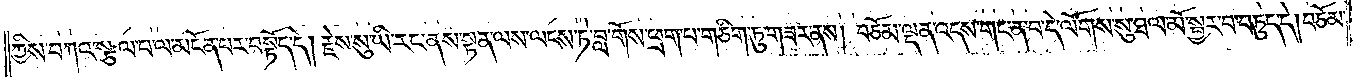ཀྱིས་བཀའ་སྩལ་པ་ལ་མངོན་པར་བསྟོད་དེ། རྗེས་སུ་ཡི་རང་ནས་སྟན་ལས་ལངས་ཏེ་བླ་གོས་ཕྲག་པ་གཅིག་ཏུ་གཟར་ནས། བཅོམ་ལྡན་འདས་གང་ན་བ་དེ་ལོགས་སུ་ཐལ་མོ་སྦྱར་བ་བཏུད་དེ། བཅོམ་
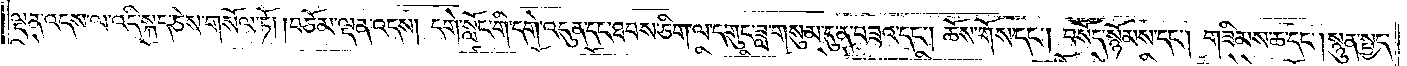ལྡན་འདས་ལ་འདི་སྐད་ཅེས་གསོལ་ཏོ། །བཅོམ་ལྡན་འདས། དགེ་སློང་གི་དགེ་འདུན་དང་ཐབས་ཅིག་ལ་དགུང་ཟླ་གསུམ་དུ་ན་བཟའ་དང༌། ཆོས་གོས་དང༌། བསོད་སྙོམས་དང༌། གཟིམས་ཆ་དང༌། སྙུན་སྤྱད་
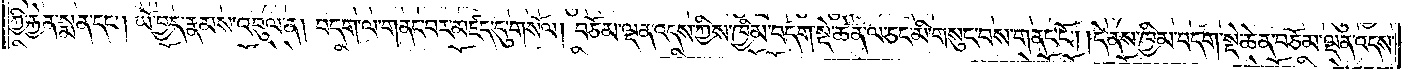ཀྱི་རྐྱེན་སྨན་དང༌། ཡོ་བྱད་རྣམས་འབུལ་ན། བདག་ལ་གནང་བར་མཛད་དུ་གསོལ། བཅོམ་ལྡན་འདས་ཀྱིས་ཁྱིམ་བདག་སྡེ་ཆེན་ལ་ཅང་མི་གསུང་བས་གནང་ངོ༌། །དེ་ནས་ཁྱིམ་བདག་སྡེ་ཆེན་བཅོམ་ལྡན་འདས་
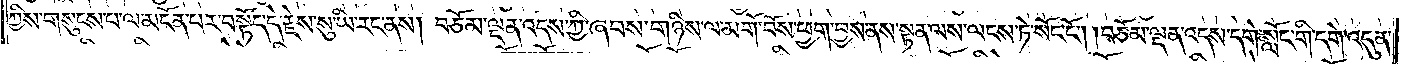ཀྱིས་གསུངས་པ་ལ་མངོན་པར་བསྟོད་དེ་རྗེས་སུ་ཡི་རང་ནས། བཅོམ་ལྡན་འདས་ཀྱི་ཞབས་གཉིས་ལ་མགོ་བོས་ཕྱག་བྱས་ནས་སྟན་ལས་ལངས་ཏེ་སོང་ངོ༌། །བཅོམ་ལྡན་འདས་དགེ་སློང་གི་དགེ་འདུན་
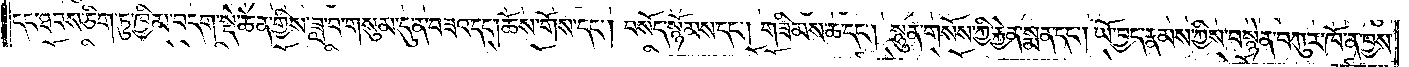དང་ཐབས་ཅིག་ཏུ་ཁྱིམ་བདག་སྡེ་ཆེན་གྱིས་ཟླ་བ་གསུམ་དུ་ན་བཟའ་དང༌། ཆོས་གོས་དང༌། བསོད་སྙོམས་དང༌། གཟིམས་ཆ་དང༌། སྙུན་གསོས་ཀྱི་རྐྱེན་སྨན་དང༌། ཡོ་བྱད་རྣམས་ཀྱིས་བསྙེན་བཀུར་ཁོ་ན་བྱས་
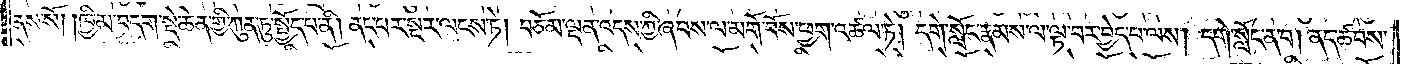ནས་སོ། །ཁྱིམ་བདག་སྡེ་ཆེན་གྱི་ཀུན་ཏུ་སྤྱོད་པ་ནི། ནང་པར་སྔར་ལངས་ཏེ། བཅོམ་ལྡན་འདས་ཀྱི་ཞབས་ལ་མགོ་བོས་ཕྱག་འཚལ་ཏེ། དགེ་སློང་རྣམས་ལ་ལྟ་བར་བྱེད་པ་ལས། དགེ་སློང་ན་བ། ནད་ཚབས་
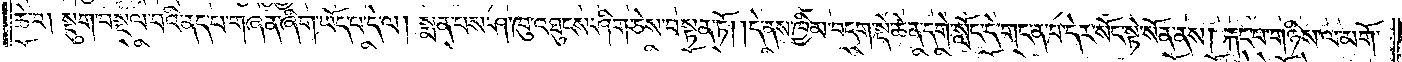ཆེ་བ། སྡུག་བསྔལ་བའི་ནད་པ་གཞན་ཞིག་ཡོད་པ་དེ་ལ། སྨན་པས་ཤ་ཁུ་འཐུངས་ཤིག་ཅེས་བསྟན་ཏོ། །དེ་ནས་ཁྱིམ་བདག་སྡེ་ཆེན་དགེ་སློང་དེ་གང་ན་བ་དེར་སོང་སྟེ་སོན་ནས། རྐང་པ་གཉིས་ལ་མགོ་
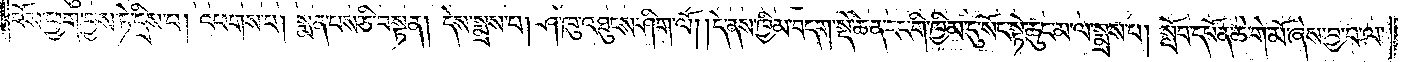བོས་ཕྱག་བྱས་ཏེ་དྲིས་བ། འཕགས་པ། སྨན་པས་ཅི་བསྟན། དེས་སྨྲས་པ། ཤ་ཁུ་འཐུངས་ཤིག་ལོ། །དེ་ནས་ཁྱིམ་བདག་སྡེ་ཆེན་རང་གི་ཁྱིམ་དུ་སོང་སྟེ་ཆུང་མ་ལ་སྨྲས་པ། སློབ་དཔོན་ཆེ་གེ་མོ་ཞེས་བྱ་བ་ལ་
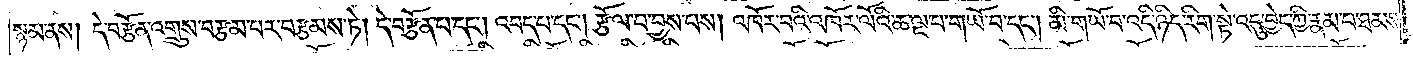སྙམ་ནས། དེ་བརྩོན་འགྲུས་བརྩམ་པར་བརྩམས་ཏེ། དེ་བརྩོན་པ་དང༌། འབད་པ་དང༌། རྩལ་བ་བྱས་པས། འཁོར་བའི་འཁོར་ལོའི་ཆ་ལྔ་པ་གཡོ་བ་དང༌། མི་གཡོ་བ་འདི་ཉིད་རིག་སྟེ་འདུ་བྱེད་ཀྱི་རྣམ་པ་ཐམས་
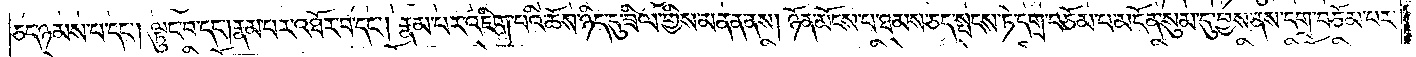ཅད་ཉམས་པ་དང༌། ལྟུང་བ་དང༌། རྣམ་པར་འཐོར་བ་དང༌། རྣམ་པར་འཇིག་པའི་ཆོས་ཉིད་དུ་ཟིལ་གྱིས་མནན་ནས། ཉོན་མོངས་པ་ཐམས་ཅད་སྤངས་ཏེ་དགྲ་བཅོམ་པ་མངོན་སུམ་དུ་བྱས་ནས་དགྲ་བཅོམ་པར་
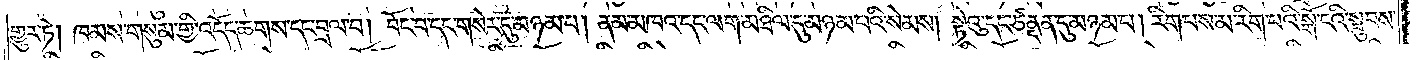གྱུར་ཏེ། ཁམས་གསུམ་གྱི་འདོད་ཆགས་དང་བྲལ་བ། བོང་བ་དང་གསེར་དུ་མཉམ་པ། ནམ་མཁའ་དང་ལག་མཐིལ་དུ་མཉམ་པའི་སེམས། སྟེའུ་དང་ཙནྡན་དུ་མཉམ་པ། རིག་པས་མ་རིག་པའི་སྒོ་ངའི་སྦུབས་
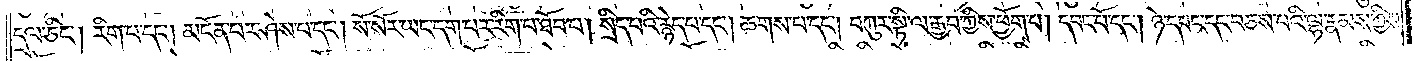དྲལ་ཅིང༌། རིག་པ་དང༌། མངོན་པར་ཤེས་པ་དང༌། སོ་སོར་ཡང་དག་པར་རིག་པ་ཐོབ་པ། སྲིད་པའི་རྙེད་པ་དང༌། ཆགས་པ་དང༌། བཀུར་སྟི་ལ་རྒྱབ་ཀྱིས་ཕྱོགས་པ། དབང་པོ་དང༌། ཉེ་དབང་དང་བཅས་པའི་ལྷ་རྣམས་ཀྱིས་
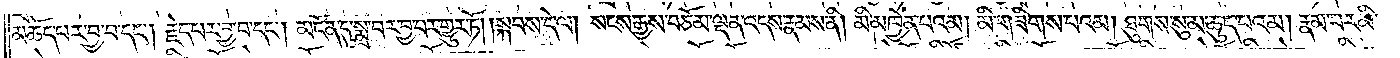མཆོད་པར་བྱ་བ་དང༌། རྗེད་པར་བྱ་བ་དང༌། མངོན་དུ་སྨྲ་བར་བྱ་བར་གྱུར་ཏོ། །སྐབས་དེ་ལ། སངས་རྒྱས་བཅོམ་ལྡན་འདས་རྣམས་ནི། མི་མཁྱེན་པའམ། མི་གཟིགས་པའམ། ཐུགས་སུ་མ་ཆུད་པའམ། རྣམ་པར་མི་
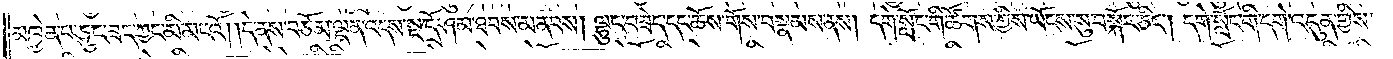མཁྱེན་པ་ཅུང་ཟད་ཀྱང་མི་མངའོ། །དེ་ནས་བཅོམ་ལྡན་འདས་སྔ་དྲོ་ཤམ་ཐབས་མནབས། ལྷུང་བཟེད་དང་ཆོས་གོས་བསྣམས་ནས། དགེ་སློང་གི་ཚོགས་ཀྱིས་ཡོངས་སུ་བསྐོར་ཅིང༌། དགེ་སློང་གི་དགེ་འདུན་གྱིས་
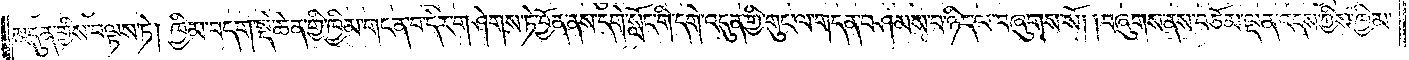མདུན་གྱིས་བལྟས་ཏེ། ཁྱིམ་བདག་སྡེ་ཆེན་གྱི་ཁྱིམ་གང་ན་བ་དེར་གཤེགས་ཏེ་བྱོན་ནས་དགེ་སློང་གི་དགེ་འདུན་གྱི་གུང་ལ་གདན་བཤམས་པ་ཉིད་ལ་བཞུགས་སོ། །བཞུགས་ནས་བཅོམ་ལྡན་འདས་ཀྱིས་ཁྱིམ་
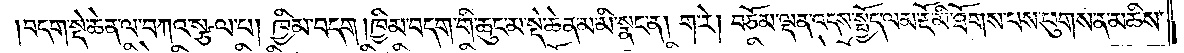།བདག་སྡེ་ཆེན་ལ་བཀའ་སྩལ་པ། ཁྱིམ་བདག །ཁྱིམ་བདག་གི་ཆུང་མ་སྡེ་ཆེན་མ་མི་སྣང་ན། ག་རེ། བཅོམ་ལྡན་འདས་སྤྱོད་ལམ་རྡོ་མི་ཐོགས་པས་ཕུགས་ན་མཆིས་
